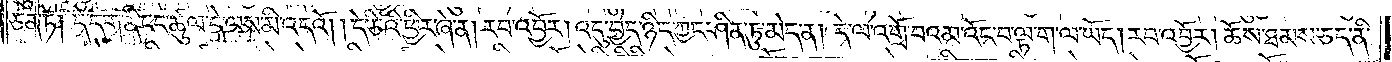ཅན་ཏེ། དེ་དག་ནི་ངང་ཚུལ་དེ་ལས་མི་འདའོ། །དེ་ཅིའི་ཕྱིར་ཞེ་ན། རབ་འབྱོར། འདུ་བྱེད་ཉིད་ཀྱང་ཤིན་ཏུ་མེད་ན། དེ་ལ་འགྲོ་བའམ་འོང་བ་ལྟ་ག་ལ་ཡོད། རབ་འབྱོར། ཆོས་ཐམས་ཅད་ནི་
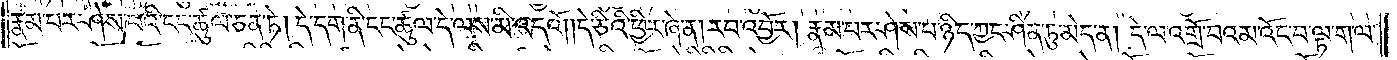རྣམ་པར་ཤེས་པའི་ངང་ཚུལ་ཅན་ཏེ། དེ་དག་ནི་ངང་ཚུལ་དེ་ལས་མི་འདའོ། །དེ་ཅིའི་ཕྱིར་ཞེ་ན། རབ་འབྱོར། རྣམ་པར་ཤེས་པ་ཉིད་ཀྱང་ཤིན་ཏུ་མེད་ན། དེ་ལ་འགྲོ་བའམ་འོང་བ་ལྟ་ག་ལ་
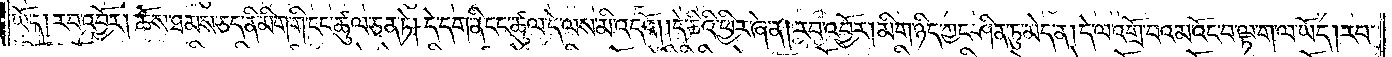ཡོད། རབ་འབྱོར། ཆོས་ཐམས་ཅད་ནི་མིག་གི་ངང་ཚུལ་ཅན་ཏེ། དེ་དག་ནི་ངང་ཚུལ་དེ་ལས་མི་འདའོ། །དེ་ཅིའི་ཕྱིར་ཞེ་ན། རབ་འབྱོར། མིག་ཉིད་ཀྱང་ཤིན་ཏུ་མེད་ན། དེ་ལ་འགྲོ་བའམ་འོང་བ་ལྟ་ག་ལ་ཡོད། རབ་
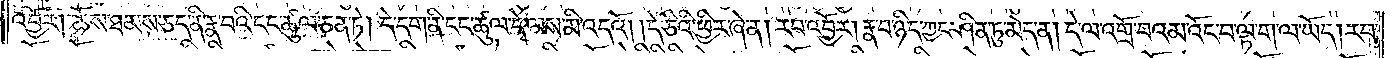འབྱོར། ཆོས་ཐམས་ཅད་ནི་རྣ་བའི་ངང་ཚུལ་ཅན་ཏེ། དེ་དག་ནི་ངང་ཚུལ་དེ་ལས་མི་འདའོ། །དེ་ཅིའི་ཕྱིར་ཞེ་ན། རབ་འབྱོར། རྣ་བ་ཉིད་ཀྱང་ཤིན་ཏུ་མེད་ན། དེ་ལ་འགྲོ་བའམ་འོང་བ་ལྟ་ག་ལ་ཡོད། རབ་
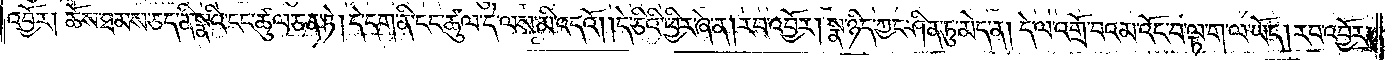འབྱོར། ཆོས་ཐམས་ཅད་ནི་སྣའི་ངང་ཚུལ་ཅན་ཏེ། དེ་དག་ནི་ངང་ཚུལ་དེ་ལས་མི་འདའོ། །དེ་ཅིའི་ཕྱིར་ཞེ་ན། རབ་འབྱོར། སྣ་ཉིད་ཀྱང་ཤིན་ཏུ་མེད་ན། དེ་ལ་འགྲོ་བའམ་འོང་བ་ལྟ་ག་ལ་ཡོད། རབ་འབྱོར།
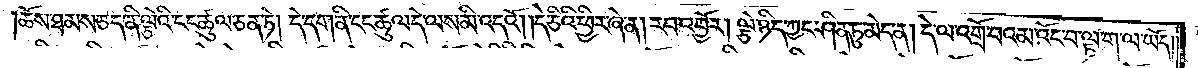ཆོས་ཐམས་ཅད་ནི་ལྕེའི་ངང་ཚུལ་ཅན་ཏེ། དེ་དག་ནི་ངང་ཚུལ་དེ་ལས་མི་འདའོ། །དེ་ཅིའི་ཕྱིར་ཞེ་ན། རབ་འབྱོར། ལྕེ་ཉིད་ཀྱང་ཤིན་ཏུ་མེད་ན། དེ་ལ་འགྲོ་བའམ་འོང་བ་ལྟ་ག་ལ་ཡོད།
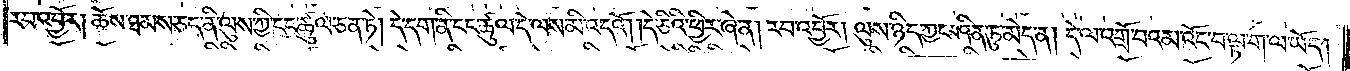རབ་འབྱོར། ཆོས་ཐམས་ཅད་ནི་ལུས་ཀྱི་ངང་ཚུལ་ཅན་ཏེ། དེ་དག་ནི་ངང་ཚུལ་དེ་ལས་མི་འདའོ། །དེ་ཅིའི་ཕྱིར་ཞེ་ན། རབ་འབྱོར། ལུས་ཉིད་ཀྱང་ཤིན་ཏུ་མེད་ན། དེ་ལ་འགྲོ་བའམ་ལྟ་ག་ལ་ཡོད།
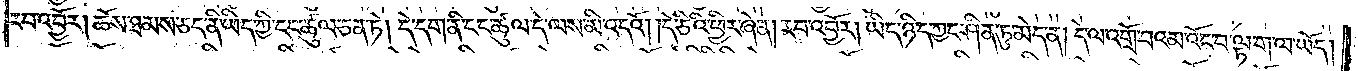རབ་འབྱོར། ཆོས་ཐམས་ཅད་ནི་ཡིད་ཀྱི་ངང་ཚུལ་ཅན་ཏེ། དེ་དག་ནི་ངང་ཚུལ་དེ་ལས་མི་འདའོ། །དེ་ཅིའི་ཕྱིར་ཞེ་ན། རབ་འབྱོར། ཡིད་ཀྱང་ཤིན་ཏུ་མེད་ན། དེ་ལ་འགྲོ་བའམ་འོང་བ་ལྟ་ག་ལ་ཡོད།
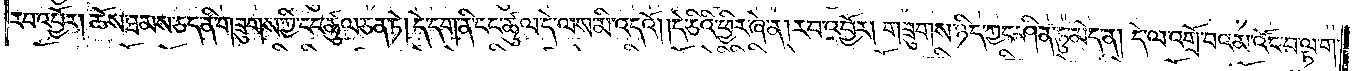རབ་འབྱོར། ཆོས་ཐམས་ཅད་ནི་གཟུགས་ཀྱི་ངང་ཚུལ་ཅན་ཏེ། དེ་དག་ནི་ངང་ཚུལ་དེ་ལས་མི་འདའོ། །དེ་ཅིའི་ཕྱིར་ཞེ་ན། རབ་འབྱོར། གཟུགས་ཉིད་ཀྱང་ཤིན་ཏུ་མེད་ན། དེ་ལ་འགྲོ་བའམ་མ་འོང་བ་ལྟ་ག་
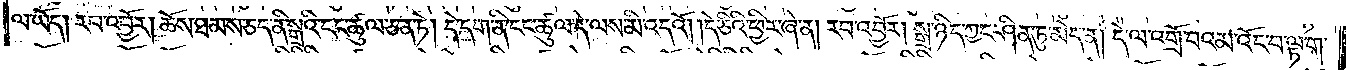ལ་ཡོད། རབ་འབྱོར། ཆོས་ཐམས་ཅད་ནི་སྒྲའི་ངང་ཚུལ་ཅན་ཏེ། དེ་དག་ནི་ངང་ཚུལ་དེ་ལས་མི་འདའོ། །དེ་ཅིའི་ཕྱིར་ཞེ་ན། རབ་འབྱོར། སྒྲ་ཉིད་ཀྱང་ཤིན་ཏུ་མེད་ན། དེ་ལ་འགྲོ་བའམ་འོང་བ་ལྟ་ག་
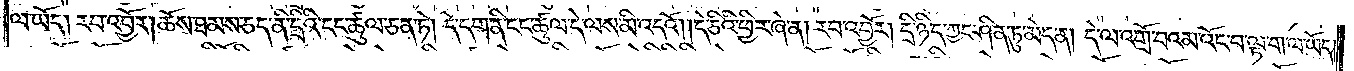ལ་ཡོད། རབ་འབྱོར། ཆོས་ཐམས་ཅད་ནི་དྲིའི་ངང་ཚུལ་ཅན་ཏེ། དེ་དག་ནི་ངང་ཚུལ་དེ་ལས་མི་འདའོ། །དེ་ཅིའི་ཕྱིར་ཞེ་ན། རབ་འབྱོར། དྲི་ཉིད་ཀྱང་ཤིན་ཏུ་མེད་ན། དེ་ལ་འགྲོ་བའམ་འོང་བ་ལྟ་ག་ལ་ཡོད།
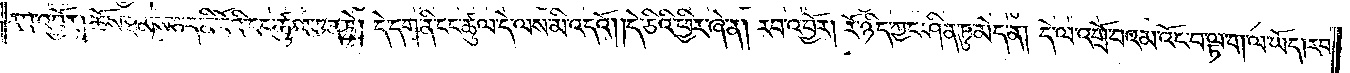རབ་འབྱོར། ཆོས་ཐམས་ཅད་ནི་རོའི་ངང་ཚུལ་ཅན་ཏེ། དེ་དག་ནི་ངང་ཚུལ་དེ་ལས་མི་འདའོ། །དེ་ཅིའི་ཕྱིར་ཞེ་ན། རབ་འབྱོར། རོ་ཉིད་ཀྱང་ཤིན་ཏུ་མེད་ན། དེ་ལ་འགྲོ་བའམ་འོང་བ་ལྟ་ག་ལ་ཡོད། རབ་
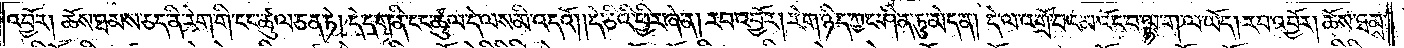འབྱོར། ཆོས་ཐམས་ཅད་ནི་རེག་གི་ངང་ཚུལ་ཅན་ཏེ། དེ་དག་ནི་ངང་ཚུལ་དེ་ལས་མི་འདའོ། །དེ་ཅིའི་ཕྱིར་ཞེ་ན། རབ་འབྱོར། རེག་ཉིད་ཀྱང་ཤིན་ཏུ་མེད་ན། དེ་ལ་འགྲོ་བའམ་འོང་བ་ལྟ་ག་ལ་ཡོད། རབ་འབྱོར། ཆོས་ཐམས་
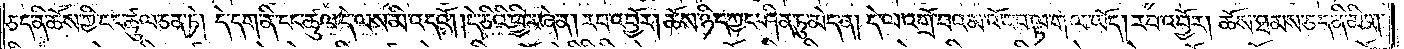ཅད་ནི་ཆོས་ཀྱི་ངང་ཚུལ་ཅན་ཏེ། དེ་དག་ནི་ངང་ཚུལ་དེ་ལས་མི་འདའོ། དེ་ཅིའི་ཕྱིར་ཞེ་ན། རབ་འབྱོར། ཆོས་ཉིད་ཀྱང་ཤིན་ཏུ་མེད་ན། དེ་ལ་འགྲོ་བའམ་འོང་བ་ལྟ་ག་ལ་ཡོད། རབ་འབྱོར། ཆོས་ཐམས་ཅད་ནི་མིག་
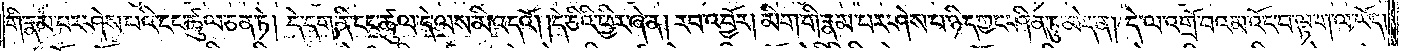གི་རྣམ་པར་ཤེས་བའི་ངང་ཚུལ་ཅན་ཏེ། དེ་དག་ནི་ངང་དེ་ལས་མི་འདའོ། །དེ་ཅིའི་ཕྱིར་ཞེ་ན། རབ་འབྱོར། མིག་གི་རྣམ་པར་ཤེས་པ་ཉིད་ཀྱང་ཤིན་ཏུ་མེད་ན། དེ་ལ་འགྲོ་བའམ་འོང་བ་ལྟ་ག་ལ་ཡོད།
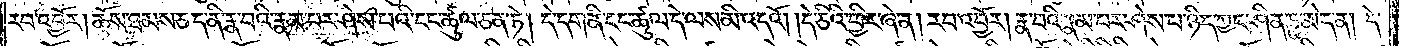རབ་འབྱོར། ཆོས་ཐམས་ཅད་ནི་རྣ་བའི་རྣམ་པར་ཤེས་པའི་ངང་ཚུལ་ཅན་ཏེ། དེ་དག་ནི་ཚུལ་དེ་ལས་མི་འདའོ། །དེ་ཅིའི་ཕྱིར་ཞེ་ན། རབ་འབྱོར། རྣ་བའི་རྣམ་པར་ཤེས་པ་ཉིད་ཀྱང་ཤིན་ཏུ་མེད་ན། དེ་
